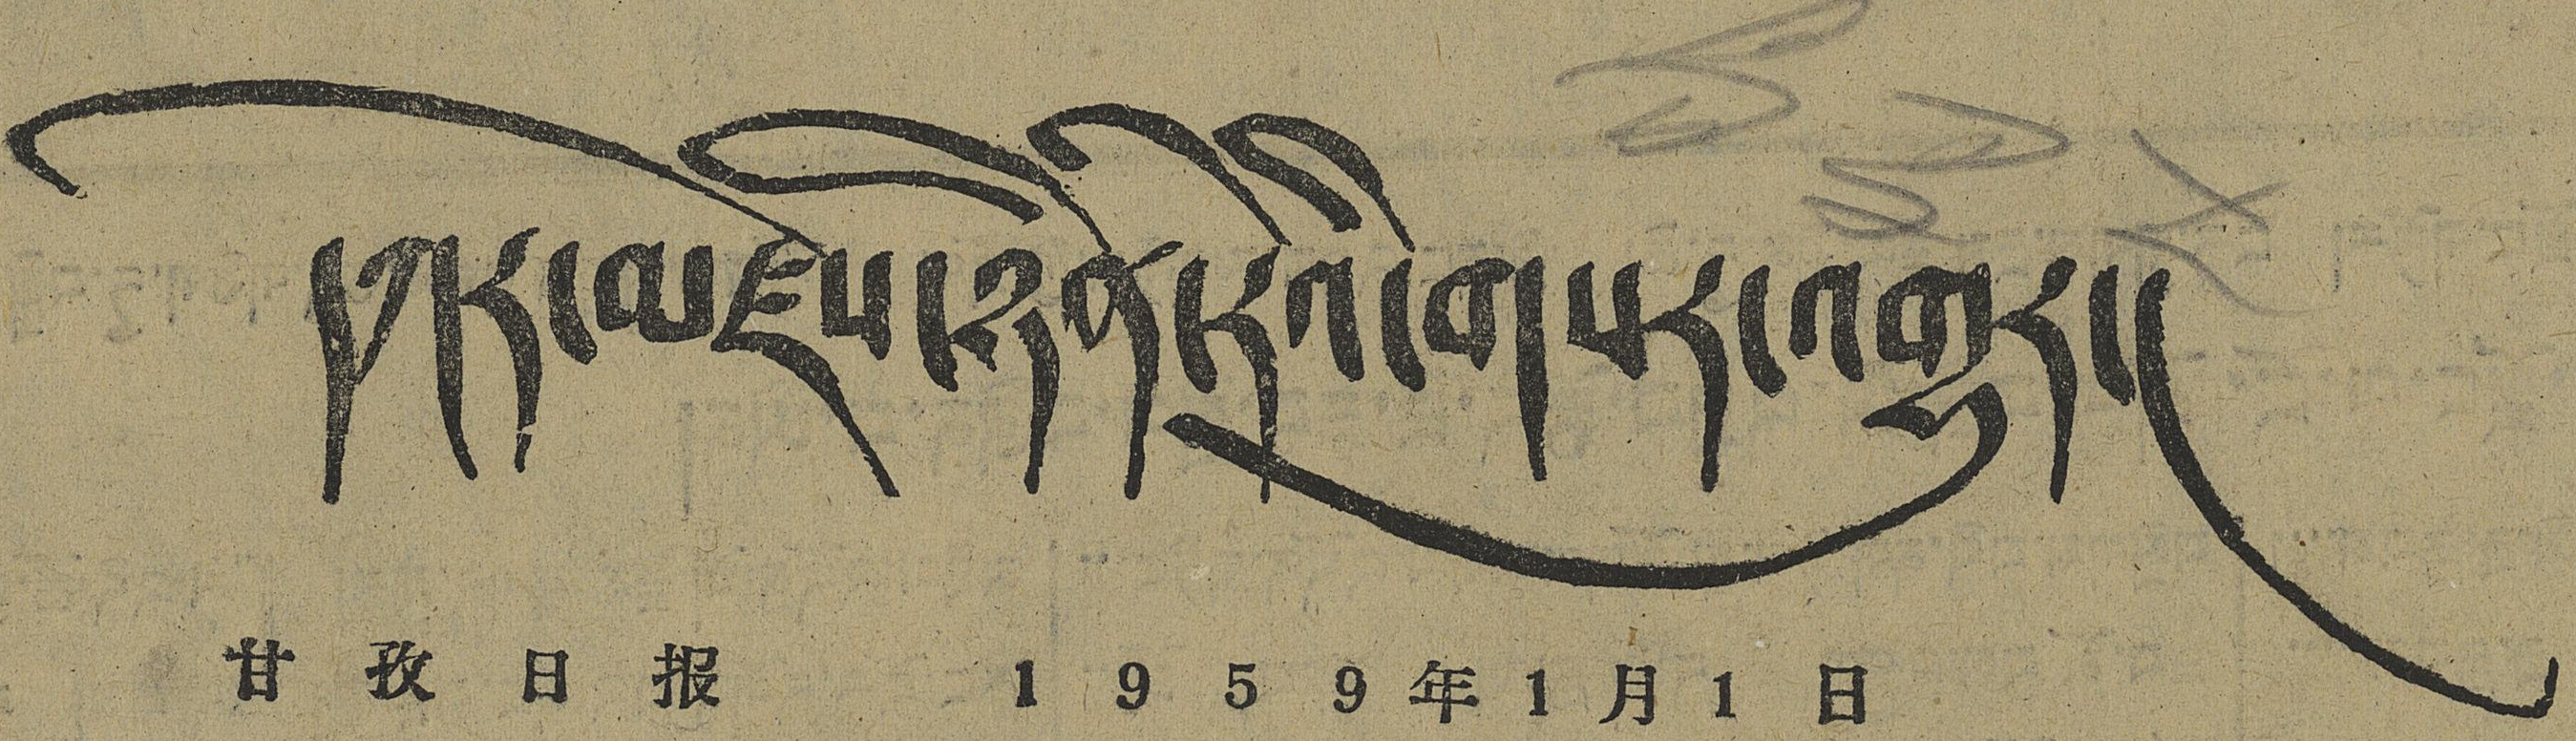དཀར་མཛེས་ཉིན་རེའི་གསར་འགྱུར།
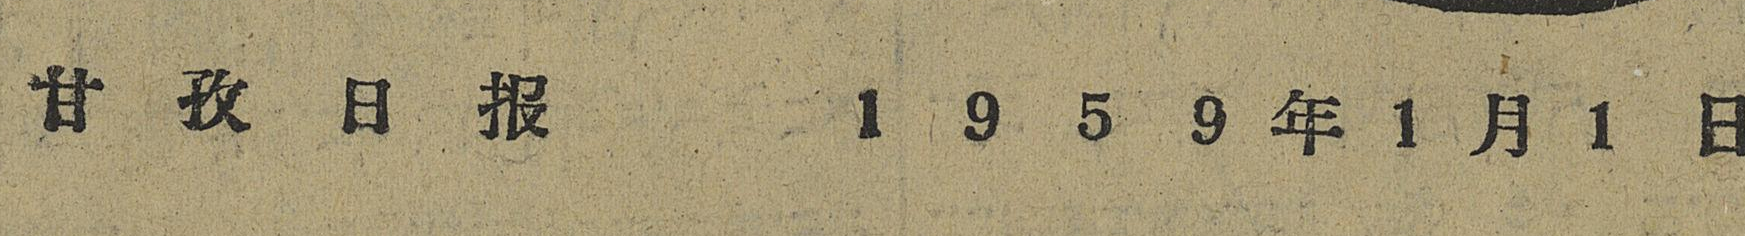甘 孜 日 报 1 9 5 9 年 1 月 1 日
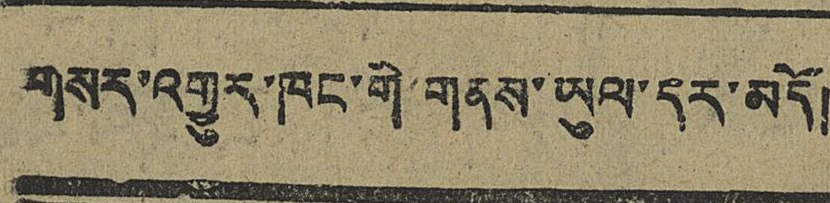གསར་འགྱུར་ཁང་གི་གནས་ཡུལ་དར་མདོ།
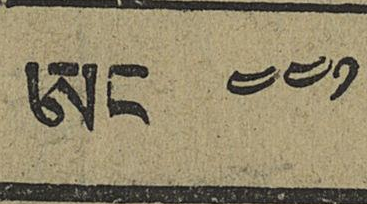ཨང ༤༤༡
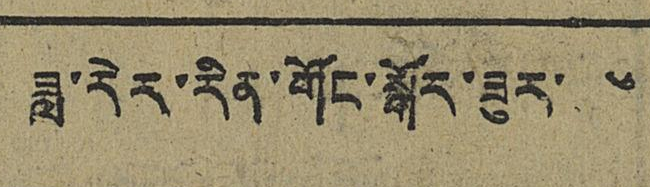ཟླ་རེར་རིན་གོང་སྒོར་ཟུར་ ༦
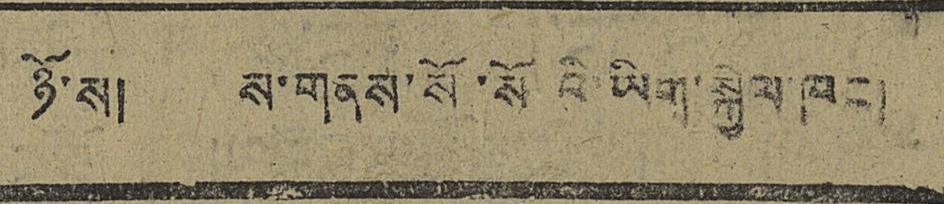ཉོ་ས། ས་གནས་སོ་སོའི་ཡིག་སྐྱེལ་ཁང་།
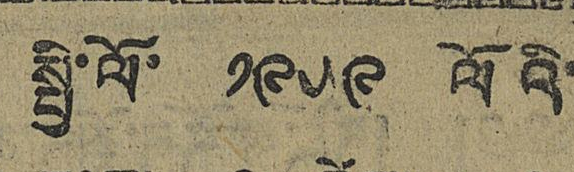སྤྱི་ལོ་ ༡༩༥༩ ལོའི་
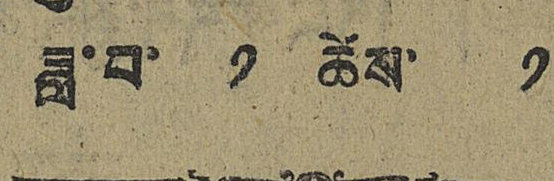ཟླ་བ་ ༡ ཚེས་ ༡
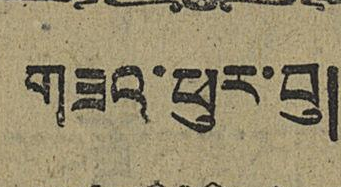གཟའ་ཕུར་བུ།
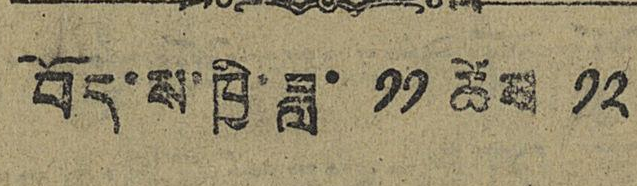བོད་ས་ཁྱི་ཟླ་ ༡༡ ཚེས ༡༢
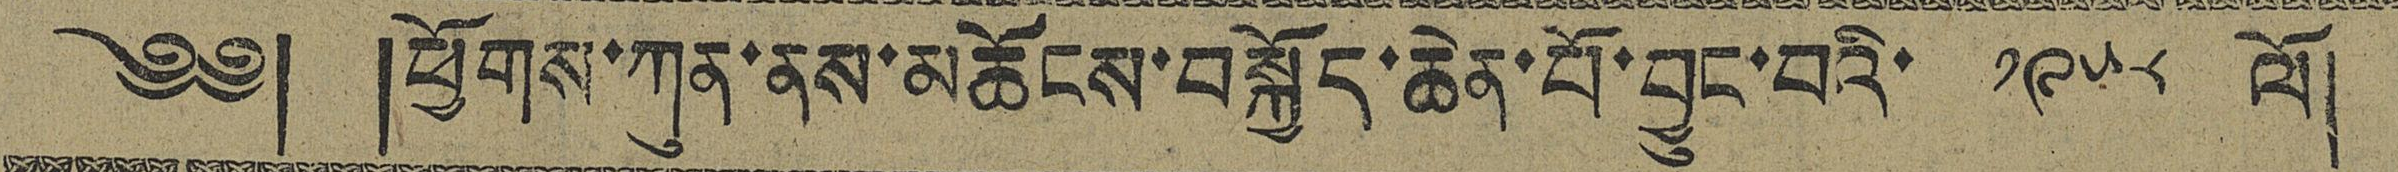༄༅། །ཕྱོགས་ཀུན་ནས་མཆོངས་བསྐྱོད་ཆེན་པོ་བྱུང་བའི་ ༡༩༥༨ ལོ། །
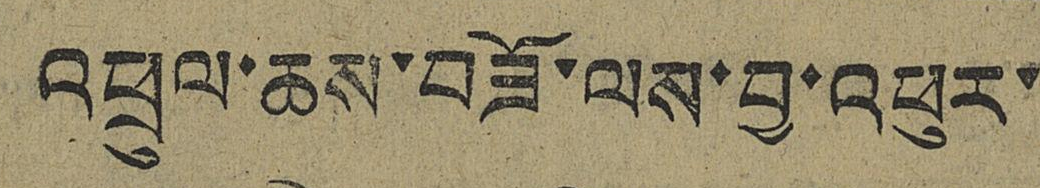འཕྲུལ་ཆས་བཟོ་ལས་བྱ་འཕུར་
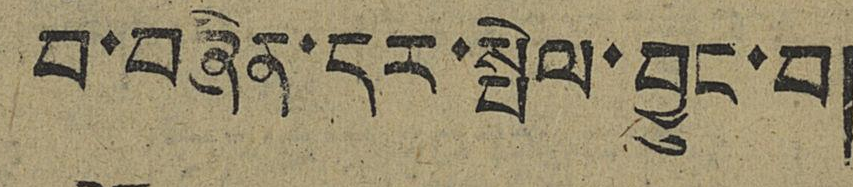བ་བཞིན་དར་སྤེལ་བྱུང་བ།
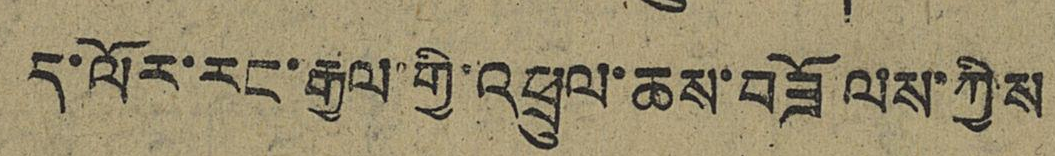ད་ལོར་རང་རྒྱལ་གྱི་འཕྲུལ་ཆས་བཟོ ལས་ཀྱིས
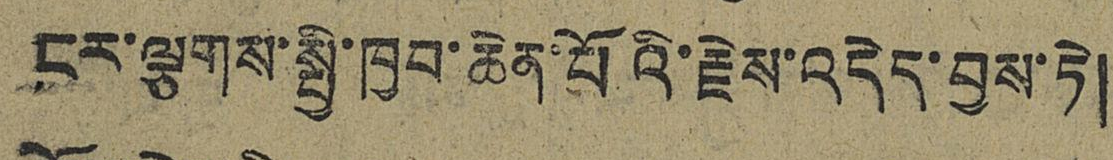ངར་ལྕགས་སྤྱི་ཁྱབ་ཆེན་པོའི་རྗེས་འདེད་བྱས་ཏེ།
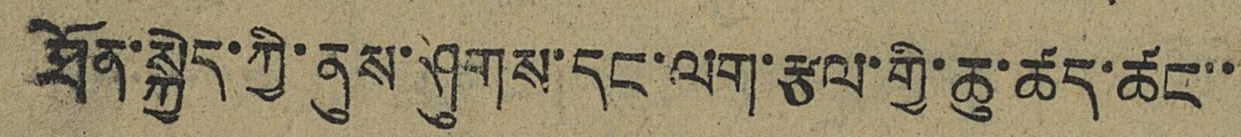ཐོན་སྐྱེད་ཀྱི་ནུས་ཤུགས་དང་ལག་རྩལ་གྱི་ཆུ་ཚད་ཚང་་
